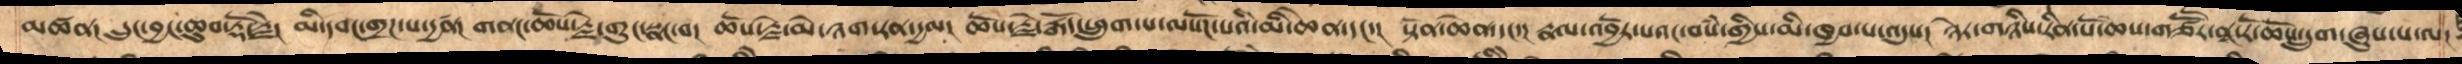མཚན།  དྲུང་བྱང་ཆུབ་རྡོ་རྗེ།  མི་དབང་གྲཌ་པ་དྱཚན།  གནང་ཆོས་རྗེ་གུང་སྣང་བ།  ཆོས་རྗེ་མི་ཉག་རན་དྱལ།  ཆོས་རྗེ་རྒོད་ཕྲུག་པ་ལསོཌ་པའི་མི་ཆེན་དང་།  སྟོན་ཆེན་དང་།  རྣལ་འབྱོར་པའང་བསཾ་གྱིས་མི་ཁྱབ་པ་འདུས།  ཉེར་གཉིས་རིན་པོ་ཆས་གཙཽར་ནཱ་རོ་ཆོས་དྲུག་ཞུས་པ་ལ།
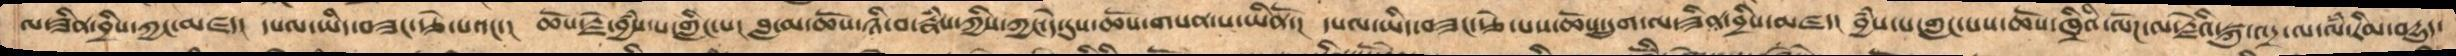ལ་ཟིན་བྲིས་ཀྱང་མཛད།  དཔལ་ཡིད་བཟང་རྩེ་པ་དང་།  ཆོས་རྗེ་བྱཾས་པ་གླིང་པ།  བླ་མ་ཆོས་ཉི་བ་རྣཾས་ཀྱིསཀྱང་དེ་དུས་ཆོས་གསན་པ་ཡིནོ།  དཔལ་ཡིད་བཟང་རྩེ་པས་ཆོས་དྲུག་ལ་ཟིན་བྲིས་མཛད།  བྱཾས་པ་གླང་པས་ཆོས་ཁྲིའི་ལོཌ་ལ་རྗེའི་སྐུ་འདྲ་ལ་ལཾ་རིམ་བདྱུད་
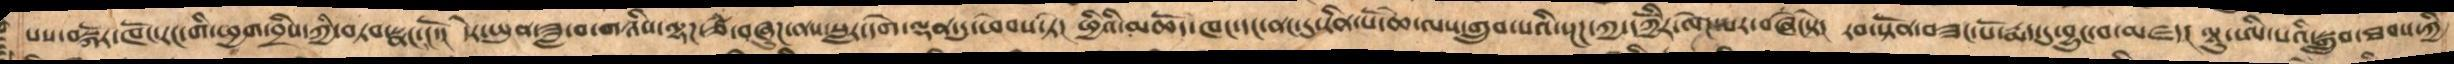པས་བསྐོར་ཁོང་རང་གི་ཕྱག་བྲིས་ཀྱི་བཏབ་སྣང་ངོ་།  དེར་ཡུན་ཟླ་བ་གཉིས་ལྷཌ་ཙཾ་བཞུཌ་ནས་སླར་དགེ་ལྡན་དུ་ཕེབས་ཏེ།  ཕྱིའི་མཆོད་ཁང་དང་ནང་དུ་རིན་པོ་ཆེ་ལས་གྲུབ་པའི་སྔཌ་ཀྱ་དཀྱིོར་ལེཌ་པར་བཞེངསྟེ།  རབ་སྟོན་བཟང་པོ་རྨད་དུ་བྱུང་བ་མཛད།  ལཱུ་ཨི་པའི་སྒྲུབ་ཐབས་ཀྱི
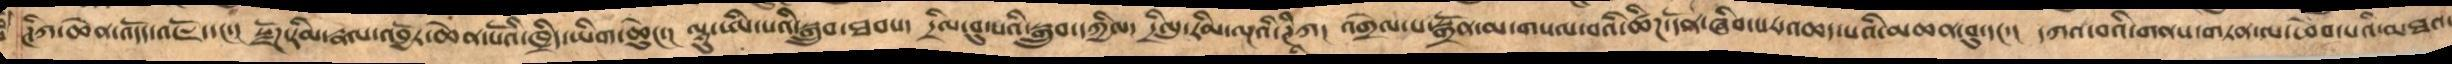ཊིཀ་ཆེན་འདོད་འཇོ་དང་། སྫོཌ་རིམ་རྣལ་འབྱོར་ཆེན་པོའི་ཁྲིད་ཡིག་ཆེུང་།  ལཱུ་ཨི་པའི་སྒྲུབ་ཐབས།  དྲིལ་བུ་པའི་སྒྲུབ་དཀྱིལ།  དྲིལུ་རིམ་ལྔའི་ཊཱིཀ།  འགྲེལ་པ་སྒྲོན་མ་གསལ་བའི་ཚིཌ་དོན་ཞིབ་པར་འཆད་པའི་མཆན་བུ་དང་།  དཀའ་བའི་གནས་གཏན་ལ་བེབ་པའི་མཐའ་
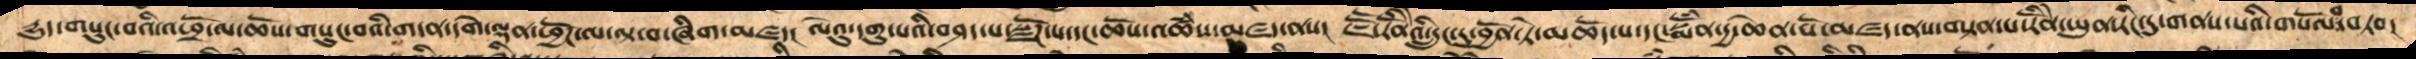དྱུད་གསུང་བའི་འཕྲོ་ལ་ཆོས་གསུང་བའི་གདན་དགེ་ལྡན་ཕྱོཌ་ལ་ལྟ་བ་ཞིག་མཛད།  ལེའུ་དགུ་པའི་བཤད་པ་སྫོཌ་པ་དང་ཆོས་འཚཾས་མཛད་ནས།  ཇཽ་རིོནེའི་དྲུང་དུ་བྱོན་ཏེ་མཆོད་པ་དང་སྨོཾན་དྱ་ཆེན་པོ་མཛད་ནས་བསྟན་པ་རིནོེ་ཡུན་རིང་དུ་གནས་པའི་གསོལ་བ་བཏབ།
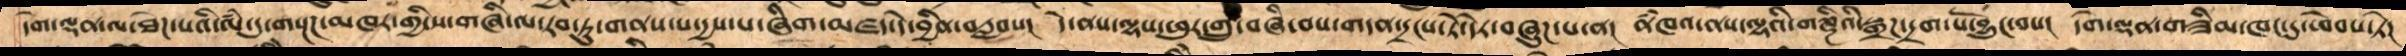དགེ་ལྡན་ལ་ཐེཌ་པའི་ལཾ་དུ་གསྔཌ་མཁར་གྱི་ས་གཞི་ལ་རབ་ཏུ་གནས་པ་དྱས་པ་ཞིག་མཛད་དེ་བྱིན་བརླབས།  དེ་ནས་ལྷས་ཕུར་གྲུ་བཞི་བས་གདན་དྲངས་ཏེ་དེར་བཞུཌ་པ་ན།  ནཾཁའ་ནས་ལྷའི་གཎྜིའི་སྒྲཌ་དྲག་པོ་བྱུང་བས།  དགེ་ལྡན་གཟིམ་ཁང་དུ་ཕེབས་ཏེ།
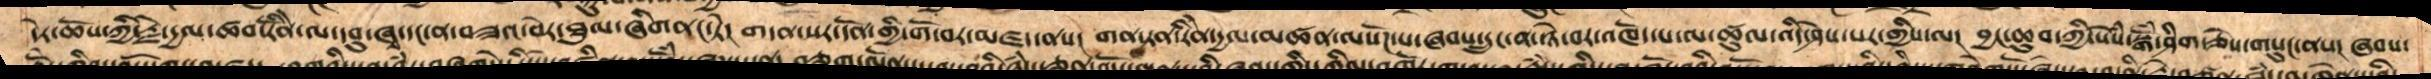དེར་ཆོས་ཀྱི་རྗེ་དྱལ་ཚབ་རིནོེ་ལ་དབུ་ཞྭ་དང་ན་བཟའ་བེར་ཐུལ་ཞིགནང་ཏེ། གདན་སར་དོན་གྱི་གོ་བར་མཛད་ནས། གན་ཏན་རིནེ་དྱལ་མཚན་ལསོཌ་པ་ཞབས་དྲུང་ན་ཉེ་བར་འཁོད་པ་ལ་ཚུལ་འདི་ཤེས་པར་གྱིས་ལ། བྱང་ཆུབ་ཀྱི་སེཾས་སྒོཾ་ཤིག་ཅེས་གསུང་ནས། ཞབས་
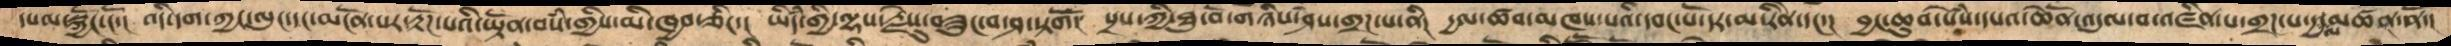དཔལ་སྐྱོང་ངོ་།  འདི་དག་ཀྱང་ལུང་དང་མངོན་པར་རྟོཌ་པའི་ཡྟོན་བསཾ་གྱིས་མི་ཁྱབ་ཅིང་།  ཡིདཾ་གྱི་ལྷ་རྗེསུ་བཟུང་བ་ཤ་སྟགོ།  སྲས་ཀྱི་ཐུ་བོ་གཉིས་ཞེས་གྲཌ་པ་ནི།  དྱལ་ཚབ་མཁས་པའི་དབང་པོ་དར་མ་རིནེ་དང་།  བྱང་ཆུབ་སེཾས་དཔའ་ཆེནོ་འདུལ་བ་འཛིན་པ་གྲཌ་པ་དྱལ་མཚན་ནོ།
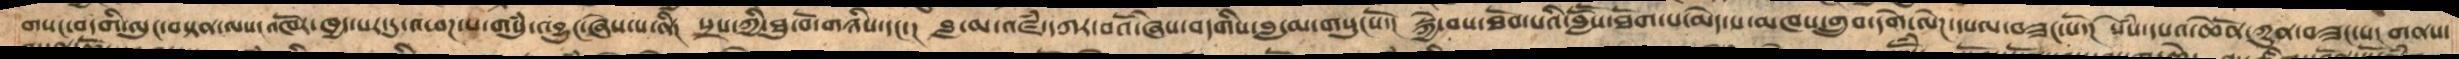གསང་བདགི་ལུང་བསྟན་ལས།  འཁོར་ཁྱད་པར་དུ་འཕཌ་པ་གསུཾ་འབྱུང་ཞེས་པ་ནི།  སྲས་ཀྱི་ཐུ་བོ་གཉིས་དང་།  བླ་མ་འཇཾ་དཀར་བའོ་ཞེས་བདགིས་བླ་མ་གསུངསོ།  སྐྱེ་བས་ཐོབ་པའི་བླཽས་ཐོག་པ་མེད་པ་མཁས་གྲུབ་དགེ་ལེཌ་དཔལ་བཟང་པོ།  སེཾས་དཔའ་ཆེནོ་ཀུན་བཟང་པ།  གནས་
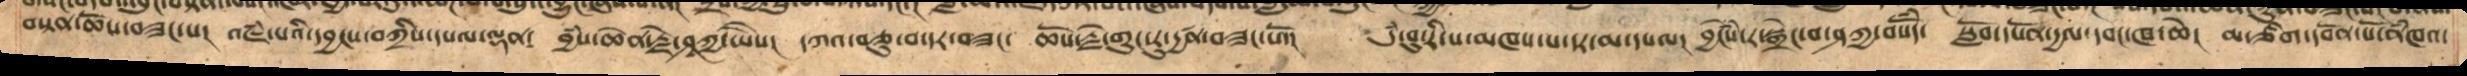བསྟན་ཆོས་བཟང་པ། འཇཾ་པའི་དབྱངས་བཀྲིས་དཔལ་ལྡན།  བྱཾས་ཆེན་རྗེ་ཤཱཀྱ་ཡཻས། དཀའ་བཅུ་བ་དར་བཟང་  ཆོས་རྗེ་གུང་རུ་དྱཚན་བཟང་པོ་།  དུཾ་བུ་རི་པ་མཁས་པ་དར་མ་དཔལ། བྱངེསཾ་ར་སྒྲེང་བ་ཤཀྱ་བསོདཾ་  སློབ་དཔོན་དྱལ་དབང་ཁ་ཆེ། མ་ཅིག་དབེན་པོ་ནཾཁའ་
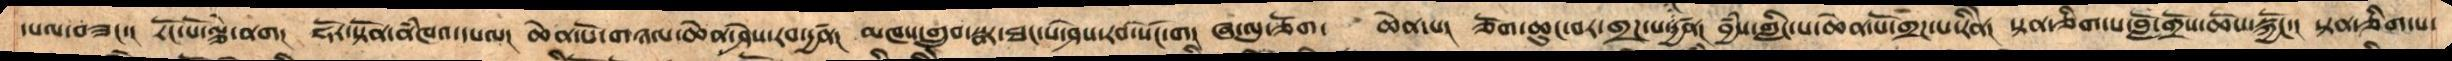དཔལ་བཟང་།  རོང་པོ་ལྕེ་ནག། ཧོར་སྟོན་ནཾཁའ་དཔལ། ཆེན་པོ་གཉལ་ཆེན་ཤེས་རབ་དྱཚན། མཁས་གྲུབ་སྣར་ཐང་པ་ཤེས་རབ་སོང་གེ།  ཞ་ལུ་ཅོག་  ཆེན་པ། ཅོག་ཆུང་བར་གྲཌ་པ་དྱཚན། བྱཾས་གླིང་པ་ཆེན་པོ་གྲཌ་པ་རིནེ། སྟན་ཅིག་པ་བློ་གྲོས་ཆོས་སྐྱོང་།  སྟན་ཅིག་པ་
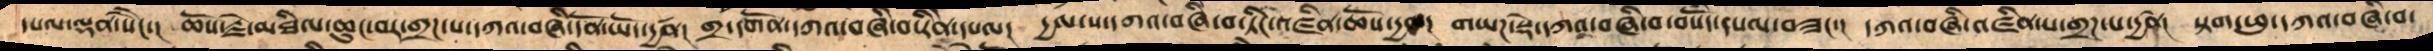དཔལ་ལྡན་སེངེ་།  ཆོས་རྗེ་མཐིལ་ཆུང་བར་གྲཌ་པ་དཀའ་བཞི་དོན་ཡོད་དྱཚན།  གྲ་དགོན་དཀའ་བཞི་བ་རིནེ་དཔལ།  དྱལ་པ་དཀའ་བཞི་བ་ཏིང་འཛིན་ཆོས་དྱལ།  གཡཌ་སྡེ་དཀའ་བཞི་བ་བསོདཾ་དཔལ་བཟང་།  དཀའ་བཞི་འཛིན་པ་གྲཌ་པ་དྱཚན།  སྟག་ཕུ་དཀའ་བཞི་བ་
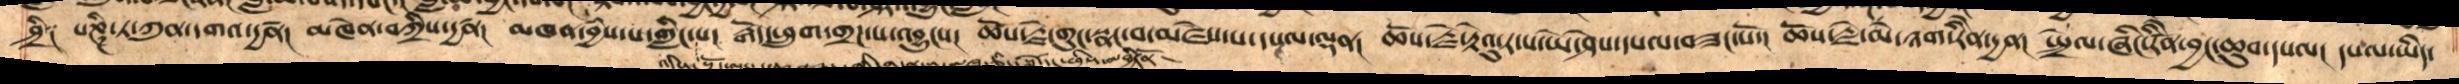ཤྲི༑  པཎྜི་ཏ་ཀུན་དགའ་དྱཚན། མཁེན་བཀྲིས་དྱཚན།  མཁན་བྱཾས་པ་གླིང་པ། རྒོད་ཕྲུག་གྲཌ་པ་འབྱུངས། ཆོས་རྗེ་གུང་སྣང་བ་མཛེས་པ་དཔལ་ལྡན། ཆསོ་རྗེ་རྟེའུ་ར་ས་ཡེ་ཤེས་དཔལ་བཟང་པོ་། ཆོས་རྗེ་མེ་ཉག་རིནེ་དྱན། སྤྲེལ་ཞིང་རིནོེ་བྱང་ཆུབ་དཔལ། དཔལ་ཡིད་
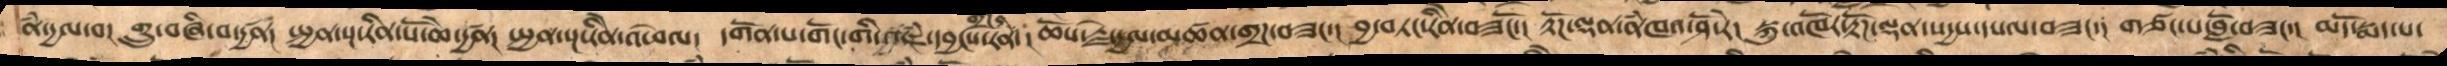ནཾ་དྱལ་བ། གྲུ་བཞི་བ་དྱཚན། སྤྱན་སྔ་རིན་པོ་ཆེ་དྱཚན། སྤྱན་སྔ་རིནེ་འཕེལ། དགོན་པ་གོང་གི་འཇཾ་དབྱངས་རིནེ།  ཆོས་རྗེ་དྱལ་མཚན་གྲཌ་བཟང་། རྟོཌ་ལྡན་ནཾཁའ་ཤོ་རེ། སྐུ་འཁོར་རྟོཌ་ལྡན་སདྱས་དཔལ་བཟང་། གཙང་པ་བློ་བཟང་། མདོ་སྨད་པ་
